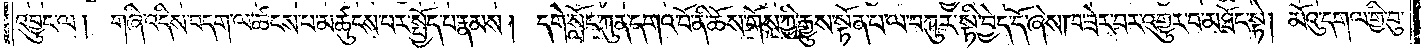འབྱུང་ལ། གཞི་འདིས་བདག་ལ་ཚངས་པ་མཚུངས་པར་སྤྱོད་པ་རྣམས། དགེ་སློང་ཀུན་དགའ་བོ་ནི་ཆོས་གོས་ཀྱི་རྒྱུས་སྟོན་པ་ལ་བཀུར་སྟི་བྱེད་དོ་ཞེས་ཁ་ཟེར་བར་འགྱུར་བ་མཐོང་སྟེ། མོའུ་དགལ་གྱི་བུ་
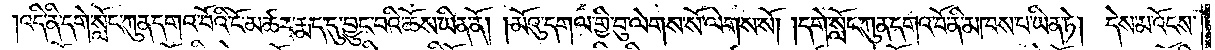འདི་ནི་དགེ་སློང་ཀུན་དགའ་བོའི་ངོ་མཚར་རྨད་དུ་བྱུང་བའི་ཆོས་ཡིན་ནོ། །མོའུ་དགལ་གྱི་བུ་ལེགས་སོ་ལེགས་སོ། །དགེ་སློང་ཀུན་དགའ་བོ་ནི་མཁས་པ་ཡིན་ཏེ། དེས་མ་འོངས་
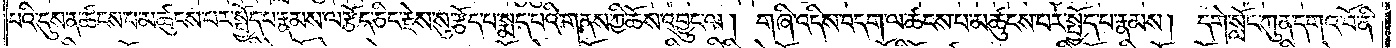པའི་དུས་ན་ཚངས་པ་མཚུངས་པར་སྤྱོད་པ་རྣམས་ལ་རྩོད་ཅིང་རྗེས་སུ་རྩོད་པ་སྨད་པའི་གནས་ཀྱི་ཆོས་འབྱུང་ལ། གཞི་འདིས་བདག་ལ་ཚངས་པ་མཚུངས་པར་སྤྱོད་པ་རྣམས། དགེ་སློང་ཀུན་དགའ་བོ་ནི་
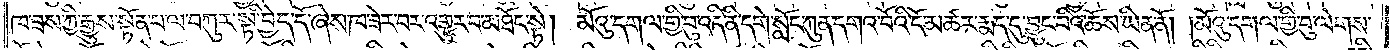ཁ་ཟས་ཀྱི་རྒྱུས་སྟོན་པ་ལ་བཀུར་སྟི་བྱེད་དོ་ཞེས་ཁ་ཟེར་བར་འགྱུར་བ་མཐོང་སྟེ། མོའུ་དགལ་གྱི་བུ་འདི་ནི་དགེ་སློང་ཀུན་དགའ་བོའི་ངོ་མཚར་རྨད་དུ་བྱུང་བའི་ཆོས་ཡིན་ནོ། །མོའུ་དགལ་གྱི་བུ་ལེགས་
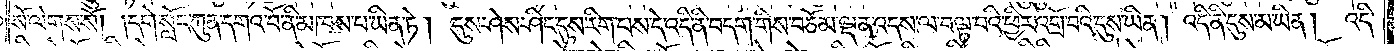སོ་ལེགས་སོ། །དགེ་སློང་ཀུན་དགའ་བོ་ནི་མཁས་པ་ཡིན་ཏེ། དུས་ཤེས་ཤིང་དུས་རིག་པས་དེ་འདི་ནི་བདག་གིས་བཅོམ་ལྡན་འདས་ལ་བལྟ་བའི་ཕྱིར་འགྲོ་བའི་དུས་ཡིན། འདི་ནི་དུས་མ་ཡིན། འདི་
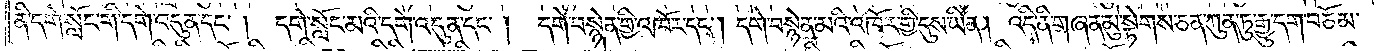ནི་དགེ་སློང་གི་དགེ་འདུན་དང༌། དགེ་སློང་མའི་དགེ་འདུན་དང༌། དགེ་བསྙེན་གྱི་འཁོར་དང༌། དགེ་བསྙེན་མའི་འཁོར་གྱི་དུས་ཡིན། འདི་ནི་གཞན་མུ་སྟེགས་ཅན་ཀུན་ཏུ་རྒྱུ་དག་བཅོམ་
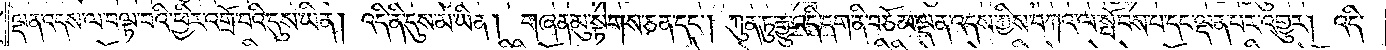ལྡན་འདས་ལ་བལྟ་བའི་ཕྱིར་འགྲོ་བའི་དུས་ཡིན། འདི་ནི་དུས་མ་ཡིན། གཞན་མུ་སྟེགས་ཅན་དང༌། ཀུན་ཏུ་རྒྱུ་འདི་དག་ནི་བཅོམ་ལྡན་འདས་ཀྱིས་བཀའ་ལ་སྤོབས་པ་དང་ལྡན་པར་འགྱུར། འདི་
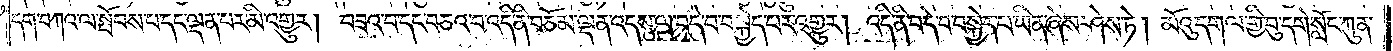དག་བཀའ་ལ་སྤོབས་པ་དང་ལྡན་པར་མི་འགྱུར། བཟའ་བ་དང་བཅའ་བ་འདི་ནི་བཅོམ་ལྡན་འདས་ལ་བདེ་བ་བསྐྱེད་པར་འགྱུར། འདི་ནི་བདེ་བ་བསྐྱེད་པ་ཡིན་ཞེས་ཤེས་ཏེ། མོའུ་དགལ་གྱི་བུ་དགེ་སློང་ཀུན་
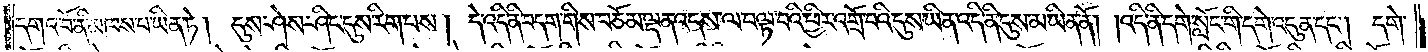དགའ་བོ་ནི་མཁས་པ་ཡིན་ཏེ། དུས་ཤེས་ཤིང་དུས་རིག་པས། དེ་འདི་ནི་བདག་གིས་བཅོམ་ལྡན་འདས་ལ་བལྟ་བའི་ཕྱིར་འགྲོ་བའི་དུས་ཡིན་དི་ནི་དུས་མ་ཡིན་ནོ། །འདི་ནི་དགེ་སློང་གི་དགེ་འདུན་དང༌། དགེ་
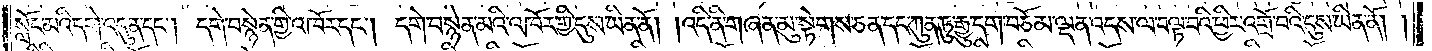སློང་མའི་དགེ་འདུན་དང༌། དགེ་བསྙེན་གྱི་འཁོར་དང༌། དགེ་བསྙེན་མའི་འཁོར་གྱི་དུས་ཡིན་ནོ། །འདི་ནི་གཞན་མུ་སྟེགས་ཅན་དང་ཀུན་ཏུ་རྒྱུ་དག་བཅོམ་ལྡན་འདས་ལ་བལྟ་བའི་ཕྱིར་འགྲོ་བའི་དུས་ཡིན་ནོ། །
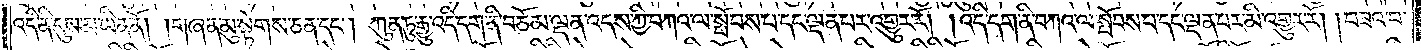འདི་ནི་དུས་མ་ཡིན་ནོ། །གཞན་མུ་སྟེགས་ཅན་དང༌། ཀུན་ཏུ་རྒྱུ་འདི་དག་ནི་བཅོམ་ལྡན་འདས་ཀྱི་བཀའ་ལ་སྤོབས་པ་དང་ལྡན་པར་འགྱུར་རོ། །འདི་དག་ནི་བཀའ་ལ་སྤོབས་པ་དང་ལྡན་པར་མི་འགྱུར་རོ། །བཟའ་བ་
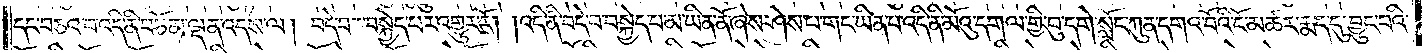དང་བཅའ་བ་འདི་ནི་བཅོམ་ལྡན་འདས་ལ། བདེ་བ་བསྐྱེད་པར་འགྱུར་རོ། །འདི་ནི་བདེ་བ་བསྐྱེད་པ་མ་ཡིན་ནོ་ཞེས་ཤེས་པ་གང་ཡིན་པ་འདི་ནི་མོའུ་དགལ་གྱི་བུ་དགེ་སློང་ཀུན་དགའ་བོའི་ངོ་མཚར་རྨད་དུ་བྱུང་བའི་
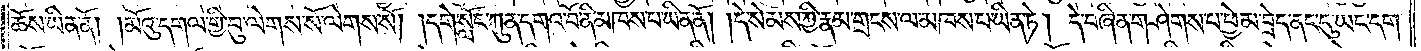ཆོས་ཡིན་ནོ། །མོའུ་དགལ་གྱི་བུ་ལེགས་སོ་ལེགས་སོ། །དགེ་སློང་ཀུན་དགའ་བོ་ནི་མཁས་པ་ཡིན་ནོ། །དེ་སེམས་ཀྱི་རྣམ་གྲངས་ལ་མཁས་པ་ཡིན་ཏེ། དེ་བཞིན་གཤེགས་པ་ཕྱེ་མ་བྲེད་ནང་དུ་ཡང་དག་
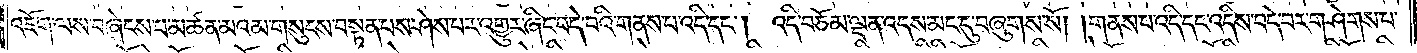འཇོག་ལས་བཞེངས་པ་མཚན་མའམ་གསུངས་བསྟན་པས་ཤེས་པར་འགྱུར་ཞིང་བདེ་བའི་གནས་པ་འདི་དང༌། འདི་བཅོམ་ལྡན་འདས་མང་དུ་བཞུགས་སོ། །གནས་པ་འདི་དང་འདིས་བདེ་བར་གཤེགས་པ་
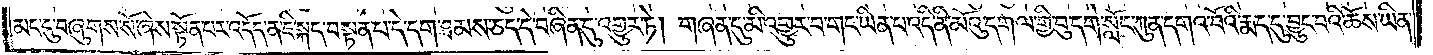མང་དུ་བཞུགས་སོ་ཞེས་སྟོན་པར་འདོད་ན་ཇི་སྐད་བསྟན་པ་དེ་དག་ཐམས་ཅད་དེ་བཞིན་དུ་འགྱུར་ཏེ། གཞན་དུ་མི་འགྱུར་བ་གང་ཡིན་པ་འདི་ནི་མོའུ་དགལ་གྱི་བུ་དགེ་སློང་ཀུན་དགའ་བོའི་རྨད་དུ་བྱུང་བའི་ཆོས་ཡིན་
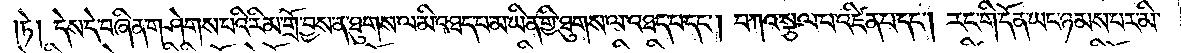།ཏེ། དེས་དེ་བཞིན་གཤེགས་པའི་རིམ་གྲོ་བྱས་ན་ཐུགས་ལ་མི་འཐད་པ་མ་ཡིན་གྱི་ཐུགས་ལ་འཐད་པ་དང༌། བཀའ་སྩལ་བ་འཛིན་པ་དང༌། རང་གི་དོན་ཡང་ཉམས་པར་མི་
